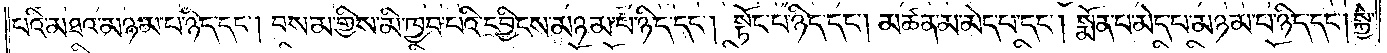པའི་མཐའ་མཉམ་པ་ཉིད་དང༌། བསམ་གྱིས་མི་ཁྱབ་པའི་དབྱིངས་མཉམ་པ་ཉིད་དང༌། སྟོང་པ་ཉིད་དང༌། མཚན་མ་མེད་པ་དང༌། སྨོན་པ་མེད་པ་མཉམ་པ་ཉིད་དང༌། སྐྱེ་
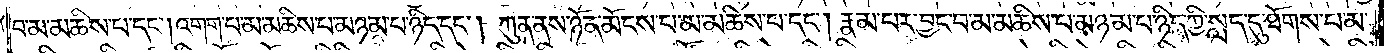བ་མ་མཆིས་པ་དང༌། འགག་པ་མ་མཆིས་པ་མཉམ་པ་ཉིད་དང༌། ཀུན་ནས་ཉོན་མོངས་པ་མ་མཆིས་པ་དང༌། རྣམ་པར་བྱང་བ་མ་མཆིས་པ་མཉམ་པ་ཉིད་ཀྱི་སླད་དུ་ཐོགས་པ་མ་
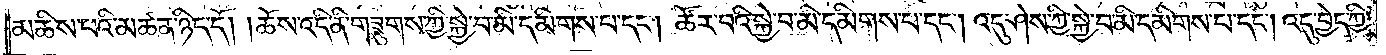མཆིས་པའི་མཚན་ཉིད་དོ། །ཆོས་འདི་ནི་གཟུགས་ཀྱི་སྐྱེ་བ་མི་དམིགས་པ་དང༌། ཚོར་བའི་སྐྱེ་བ་མི་དམིགས་པ་དང༌། འདུ་ཤེས་ཀྱི་སྐྱེ་བ་མི་དམིགས་པ་དང༌། འདུ་བྱེད་ཀྱི་
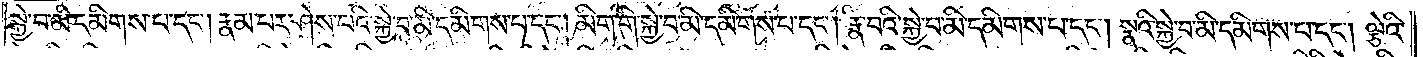སྐྱེ་བ་མི་དམིགས་པ་དང༌། རྣམ་པར་ཤེས་པའི་སྐྱེ་བ་མི་དམིགས་པ་དང༌། མིག་གི་སྐྱེ་བ་མི་དམིགས་པ་དང༌། རྣ་བའི་སྐྱེ་བ་མི་དམིགས་པ་དང༌། སྣའི་སྐྱེ་བ་མི་དམིགས་པ་དང༌། ལྕེའི་
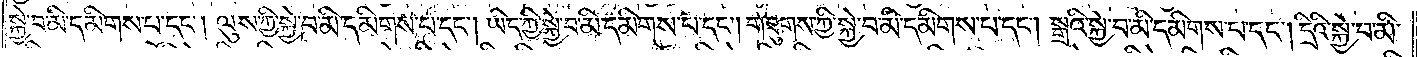སྐྱེ་བ་མི་དམིགས་པ་དང༌། ལུས་ཀྱི་སྐྱེ་བ་མི་དམིགས་པ་དང༌། ཡིད་ཀྱི་སྐྱེ་བ་མི་དམིགས་པ་དང༌། གཟུགས་ཀྱི་སྐྱེ་བ་མི་དམིགས་པ་དང༌། སྒྲའི་སྐྱེ་བ་མི་དམིགས་པ་དང༌། དྲིའི་སྐྱེ་བ་མི་
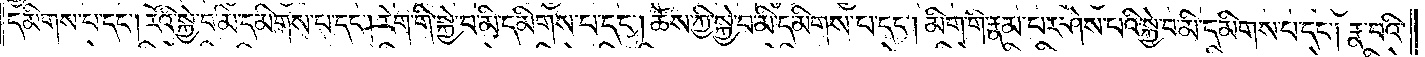དམིགས་པ་དང༌། རོའི་སྐྱེ་བ་མི་དམིགས་པ་དང༌། རེག་གི་སྐྱེ་བ་མི་དམིགས་པ་དང༌། ཆོས་ཀྱི་སྐྱེ་བ་མི་དམིགས་པ་དང༌། མིག་གི་རྣམ་པར་ཤེས་པའི་སྐྱེ་བ་མི་དམིགས་པ་དང༌། རྣ་བའི་
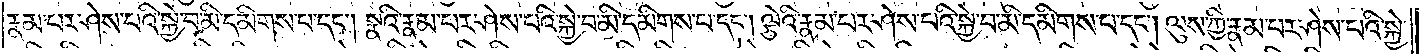རྣམ་པར་ཤེས་པའི་སྐྱེ་བ་མི་དམིགས་པ་དང༌། སྣའི་རྣམ་པར་ཤེས་པའི་སྐྱེ་བ་མི་དམིགས་པ་དང༌། ལྕེའི་རྣམ་པར་ཤེས་པའི་སྐྱེ་བ་མི་དམིགས་པ་དང༌། ལུས་ཀྱི་རྣམ་པར་ཤེས་པའི་སྐྱེ་
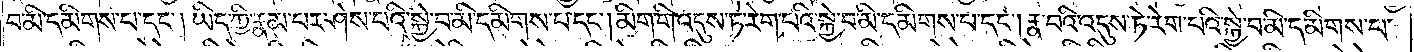བ་མི་དམིགས་པ་དང༌། ཡིད་ཀྱི་རྣམ་པར་ཤེས་པའི་སྐྱེ་བ་མི་དམིགས་པ་དང༌། མིག་གི་འདུས་ཏེ་རེག་པའི་སྐྱེ་བ་མི་དམིགས་པ་དང༌། རྣ་བའི་འདུས་ཏེ་རེག་པའི་སྐྱེ་བ་མི་དམིགས་པ་
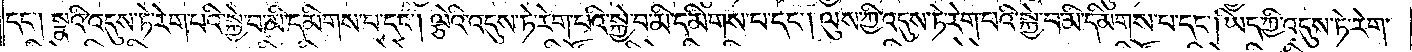དང༌། སྣའི་འདུས་ཏེ་རེག་པའི་སྐྱེ་བ་མི་དམིགས་པ་དང༌། ལྕེའི་འདུས་ཏེ་རེག་པའི་སྐྱེ་བ་མི་དམིགས་པ་དང༌། ལུས་ཀྱི་འདུས་ཏེ་རེག་པའི་སྐྱེ་བ་མི་དམིགས་པ་དང༌། ཡིད་ཀྱི་འདུས་ཏེ་རེག་
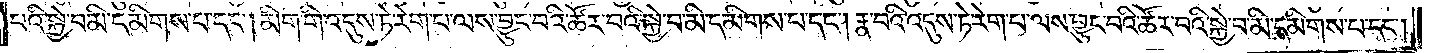པའི་སྐྱེ་བ་མི་དམིགས་པ་དང༌། མིག་གི་འདུས་ཏེ་རེག་པ་ལས་བྱུང་བའི་ཚོར་བའི་སྐྱེ་བ་མི་དམིགས་པ་དང༌། རྣ་བའི་འདུས་ཏེ་རེག་པ་ལས་བྱུང་བའི་ཚོར་བའི་སྐྱེ་བ་མི་དམིགས་པ་དང༌།
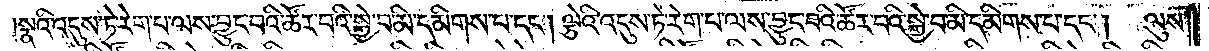སྣའི་འདུས་ཏེ་རེག་པ་ལས་བྱུང་བའི་ཚོར་བའི་སྐྱེ་བ་མི་དམིགས་པ་དང༌། ལྕེའི་འདུས་ཏེ་རེག་པ་ལས་བྱུང་བའི་ཚོར་བའི་སྐྱེ་བ་མི་དམིགས་པ་དང༌། ལུས་
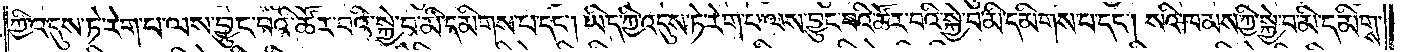ཀྱི་འདུས་ཏེ་རེག་པ་ལས་བྱུང་བའི་ཚོར་བའི་སྐྱེ་བ་མི་དམིགས་པ་དང༌། ཡིད་ཀྱི་འདུས་ཏེ་རེག་པ་ལས་བྱུང་བའི་ཚོར་བའི་སྐྱེ་བ་མི་དམིགས་པ་དང༌། སའི་ཁམས་ཀྱི་སྐྱེ་བ་མི་དམིགས་
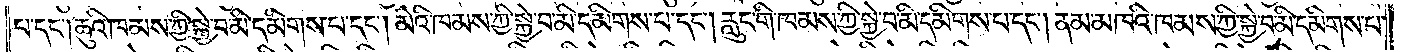པ་དང༌། ཆུའི་ཁམས་ཀྱི་སྐྱེ་བ་མི་དམིགས་པ་དང༌། མེའི་ཁམས་ཀྱི་སྐྱེ་བ་མི་དམིགས་པ་དང༌། རླུང་གི་ཁམས་ཀྱི་སྐྱེ་བ་མི་དམིགས་པ་དང༌། ནམ་མཁའི་ཁམས་ཀྱི་སྐྱེ་བ་མི་དམིགས་པ་
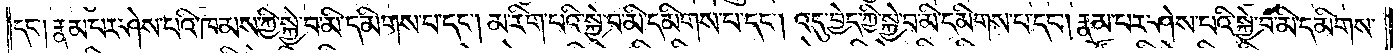དང༌། རྣམ་པར་ཤེས་པའི་ཁམས་ཀྱི་སྐྱེ་བ་མི་དམིགས་པ་དང༌། མ་རིག་པའི་སྐྱེ་བ་མི་དམིགས་པ་དང༌། འདུ་བྱེད་ཀྱི་སྐྱེ་བ་མི་དམིགས་པ་དང༌། རྣམ་པར་ཤེས་པའི་སྐྱེ་བ་མི་དམིགས་
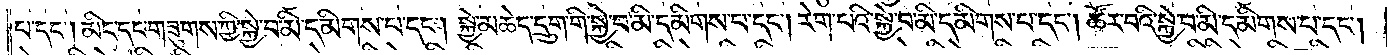པ་དང༌། མིང་དང་གཟུགས་ཀྱི་སྐྱེ་བ་མི་དམིགས་པ་དང༌། སྐྱེ་མཆེད་དྲུག་གི་སྐྱེ་བ་མི་དམིགས་པ་དང༌། རེག་པའི་སྐྱེ་བ་མི་དམིགས་པ་དང༌། ཚོར་བའི་སྐྱེ་བ་མི་དམིགས་པ་དང༌།
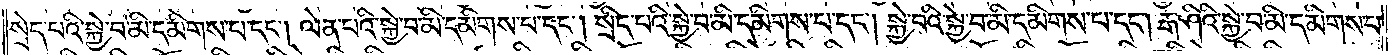སྲེད་པའི་སྐྱེ་བ་མི་དམིགས་པ་དང༌། ལེན་པའི་སྐྱེ་བ་མི་དམིགས་པ་དང༌། སྲིད་པའི་སྐྱེ་བ་མི་དམིགས་པ་དང༌། སྐྱེ་བའི་སྐྱེ་བ་མི་དམིགས་པ་དང༌། རྒ་ཤིའི་སྐྱེ་བ་མི་དམིགས་པ་
